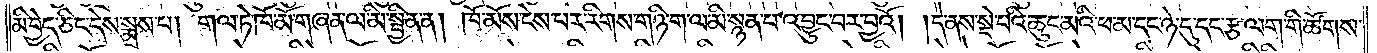མི་བྱེད་ཅིང་དེས་སྨྲས་པ། གལ་ཏེ་ཁོ་མོ་གཞན་ལ་མི་སྦྱིན་ན། ཁོ་མོས་ངེས་པར་རིགས་གཉི་ག་ལ་མི་སྙན་པ་འབྱུང་བར་བྱའོ། །དེ་ནས་སྡེ་པའི་ཆུང་མའི་ཕ་མ་དང་ཉེ་དུ་དང་རྩ་ལག་གི་ཚོགས་
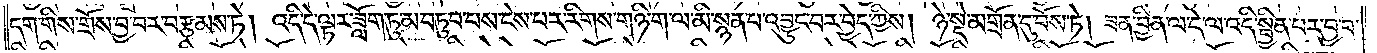དག་གིས་གྲོས་བྱ་བར་བརྩམས་ཏེ། འདི་དེ་ལྟར་ཟློག་ཏུ་མ་བཏུབ་པས་ངེས་པར་རིགས་གཉི་ག་ལ་མི་སྙན་པ་འབྱུང་བར་བྱེད་ཀྱིས། ཉེ་སྡེ་མགྲོན་དུ་བོས་ཏེ། ཟན་བྱིན་ལ་དེ་ལ་འདི་སྦྱིན་པར་བྱ་བ་
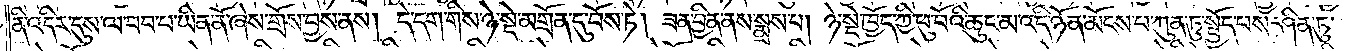ནི་འདིར་དུས་ལ་བབ་པ་ཡིན་ནོ་ཞེས་གྲོས་བྱས་ནས། དེ་དག་གིས་ཉེ་སྡེ་མགྲོན་དུ་བོས་ཏེ། ཟན་བྱིན་ནས་སྨྲས་པ། ཉེ་སྡེ་ཁྱོད་ཀྱི་ཕུ་བོའི་ཆུང་མ་འདི་ཉོན་མོངས་པ་ཀུན་ཏུ་སྤྱོད་པས་ཤིན་ཏུ་
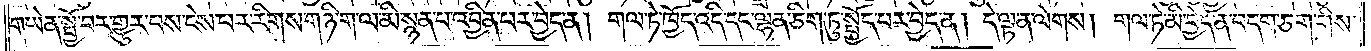གཡེན་སྤྱོ་བར་གྱུར་པས་ངེས་པར་རིགས་གཉི་ག་ལ་མི་སྙན་པ་འབྱིན་པར་བྱེད་ན། གལ་ཏེ་ཁྱོད་འདི་དང་ལྷན་ཅིག་ཏུ་སྤྱོད་པར་བྱེད་ན། དེ་ལྟ་ན་ལེགས། གལ་ཏེ་མི་བྱེད་ན་བདག་ཅག་གིས་
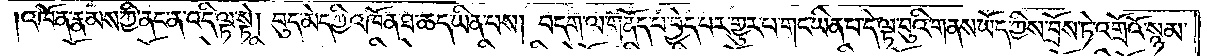འཁོན་རྣམས་ཀྱི་ནང་ན་འདི་ལྟ་སྟེ། བུད་མེད་ཀྱི་འཁོན་ཐ་ཆད་ཡིན་པས། བདག་ལ་གནོད་པ་བྱེད་པར་གྱུར་པ་གང་ཡིན་པ་དེ་ལྟ་བུའི་གནས་ཡོད་ཀྱིས་བྲོས་ཏེ་འགྲོའོ་སྙམ་
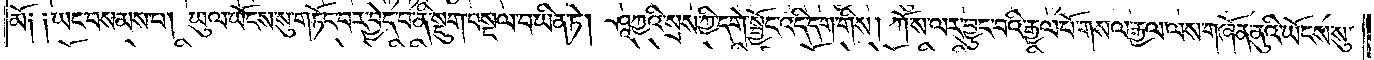མོ༑ ༑ཡང་བསམས་པ། ཡུལ་ཡོངས་སུ་གཏོང་བར་བྱེད་པ་ནི་སྡུག་བསྔལ་བ་ཡིན་ཏེ། ཤཱཀྱའི་སྲས་ཀྱི་དགེ་སྦྱོང་འདི་དག་གིས། ཀོ་ས་ལར་བྱུང་བའི་རྒྱལ་པོ་གསལ་རྒྱལ་ལས་གཞོན་ནུའི་ཡོངས་སུ་
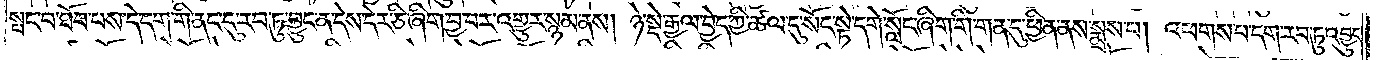སྤང་བ་ཐོབ་པས་དེ་དག་གི་ནང་དུ་རབ་ཏུ་བྱུང་ན་དེས་དེར་ཅི་ཞིག་བྱ་བར་འགྱུར་སྙམ་ནས། ཉེ་སྡེ་རྒྱལ་བྱེད་ཀྱི་ཚལ་དུ་སོང་སྟེ་དགེ་སློང་ཞིག་གི་གན་དུ་ཕྱིན་ནས་སྨྲས་པ། འཕགས་པ་དག་རབ་ཏུ་འབྱུང་
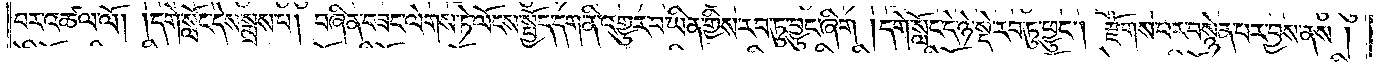བར་འཚལ་ལོ། །དགེ་སློང་དེས་སྨྲས་པ། བཞིན་བཟང་ལེགས་ཏེ་ལོངས་སྤྱོད་དག་ནི་འགྱུར་བ་ཡིན་གྱིས་རབ་ཏུ་ཕྱུང་ཞིག །དགེ་སློང་དེ་ཉེ་སྡེ་རབ་ཏུ་ཕྱུང༌། རྫོགས་པར་བསྙེན་པར་བྱས་ནས་།
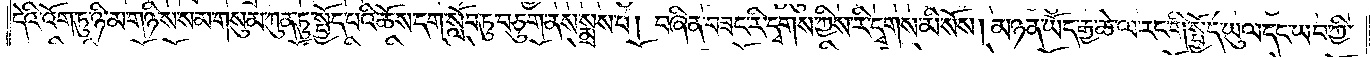དེའི་འོག་ཏུ་ཉི་མ་གཉིས་སམ་གསུམ་ཀུན་ཏུ་སྤྱོད་པའི་ཆོས་དག་སློབ་ཏུ་བཅུག་ནས་སྨྲས་པ། བཞིན་བཟང་རི་དྭགས་ཀྱིས་རི་དྭགས་མི་སོས། མཉན་ཡོད་རྒྱ་ཆེ་ལ་རང་གི་སྤྱོད་ཡུལ་དང་ཡབ་ཀྱི་
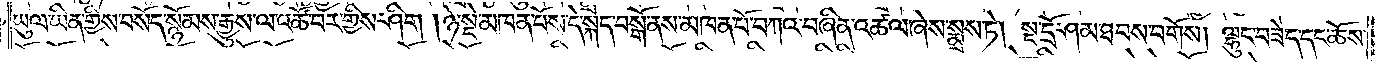ཡུལ་ཡིན་གྱིས་བསོད་སྙོམས་རྒྱུས་ལ་འཚོ་བར་གྱིས་ཤིག །ཉེ་སྡེ་མཁན་པོས་དེ་སྐད་བསྒོ་ནས་མཁན་པོ་བཀའ་བཞིན་འཚལ་ཞེས་སྨྲས་ཏེ། སྔ་དྲོ་ཤམ་ཐབས་བགོས། ལྷུང་བཟེད་དང་ཆོས་
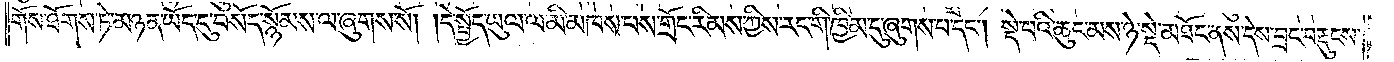གོས་ཐོགས་ཏེ་མཉན་ཡོད་དུ་བསོད་སྙོམས་ལ་ཞུགས་སོ། །དེ་སྤྱོད་ཡུལ་ལ་མི་མཁས་པས་གྲོང་རིམས་ཀྱིས་རང་གི་ཁྱིམ་དུ་ཞུགས་པ་དང༌། སྡེ་པའི་ཆུང་མས་ཉེ་སྡེ་མཐོང་ནས་དེས་བྲང་བརྡུངས་
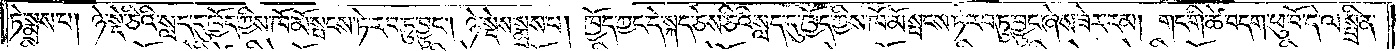ཏེ་སྨྲས་པ། ཉེ་སྡེ་ཅིའི་སླད་དུ་ཁྱོད་ཀྱིས་ཁོ་མོ་སྤངས་ཏེ་རབ་ཏུ་བྱུང༌། ཉེ་སྡེས་སྨྲས་པ། ཁྱོད་ཀྱང་དེ་སྐད་ཅེས་ཅིའི་སླད་དུ་ཁྱོད་ཀྱིས་ཁོ་མོ་སྤངས་ཏེ་རབ་ཏུ་བྱུང་ཞེས་ཟེར་རམ། གང་གི་ཚེ་བདག་ཕུ་བོ་དེ་ལ་སྤྲིན་
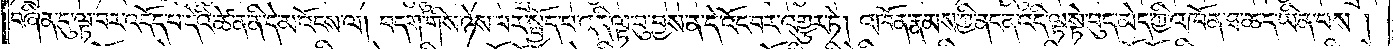བཞིན་དུ་ལྟ་བར་འདོད་པ་དེའི་ཚེ་ན་ནི་དེ་མ་འོངས་ལ། བདག་གིས་ཉེས་པར་སྤྱོད་པ་འདི་ལྟ་བུ་བྱས་ན་དེ་འོང་བར་འགྱུར་ཏེ། འཁོན་རྣམས་ཀྱི་ནང་ན་འདི་ལྟ་སྟེ་བུད་མེད་ཀྱི་འཁོན་ཐ་ཆད་ཡིན་པས།
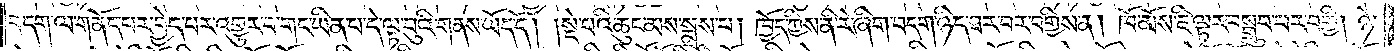བདག་ལ་གནོད་པར་བྱེད་པར་འགྱུར་བ་གང་ཡིན་པ་དེ་ལྟ་བུའི་གནས་ཡོད་དོ། །སྡེ་པའི་ཆུང་མས་སྨྲས་པ། ཁྱོད་ཀྱིས་ནི་རེ་ཞིག་བདག་ཉིད་ཐར་བར་བགྱིས་ན། ཁོ་མོས་ཇི་ལྟར་བསྒྲུབ་པར་བགྱི། ཉེ་
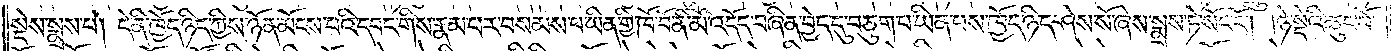སྡེས་སྨྲས་པ། དེ་ནི་ཁྱོད་ཉིད་ཀྱིས་ཉོན་མོངས་པའི་དབང་གིས་རྣམ་པར་བསམས་པ་ཡིན་གྱི་ཁོ་བོ་ནི་མི་འདོད་བཞིན་བྱེད་དུ་བཅུག་པ་ཡིན་པས་ཁྱོད་ཉིད་ཤེས་སོ་ཞེས་སྨྲས་ཏེ་སོང་ངོ༌། །ཉེ་སྡེའི་ཆུང་བོ་
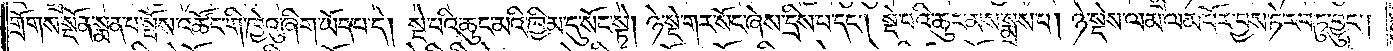གྲོགས་སྔོན་སྨན་པ་སྤོས་འཚོང་གི་ཁྱེའུ་ཞིག་ཡོད་པ་དེ། སྡེ་པའི་ཆུང་མའི་ཁྱིམ་དུ་སོང་སྟེ། ཉེ་སྡེ་གར་སོང་ཞེས་དྲིས་པ་དང༌། སྡེ་པའི་ཆུང་མས་སྨྲས་པ། ཉེ་སྡེས་ལམ་ལམ་པོར་བྱས་ཏེ་རབ་ཏུ་བྱུང༌།
